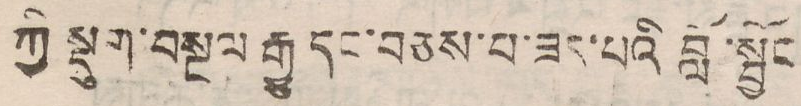ཀྱི སྡུག་བསྔལ རྒྱུ དང་བཅས་པ་ཟད་པའི བློ་སྦྱོང
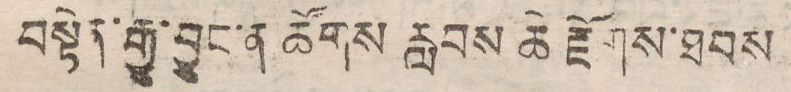བསྟེན་རྒྱུ་བྱུང་ན ཚོགས རླབས ཆེ རྫོགས་ཐབས
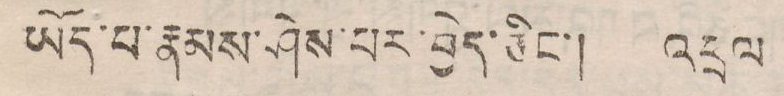ཡོད་པ་སྣམས་ཤེས་པར་བྱེད་ཅིང་། འཕྲལ་
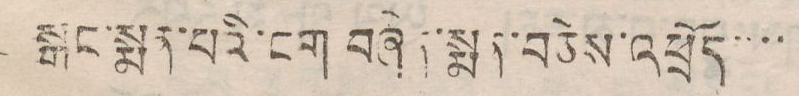སྒང་སྨན་པའི་ངག བཞིན་སྨན་བཅེས་འཕྲོད་་་་
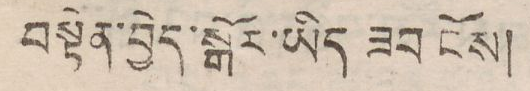བསྟེན་བྱེད་སྒོར་ཡིད ཟབ ངོས།
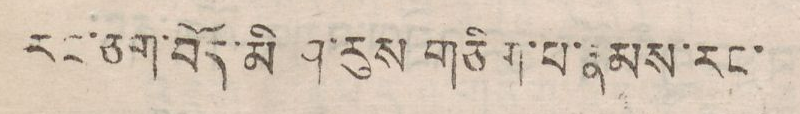རང་ཅག་བོད་མི ཤ་རུས གཅིག་པ་རྣམས་རང་
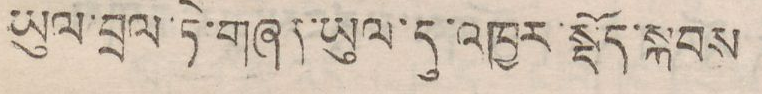ཡུལ་བྲལ་ཏེ་གཞན་ཡུལ་དུ་འཁྱར་སྡོད་སྐབས
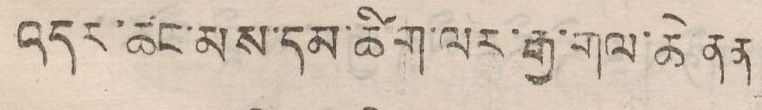འདར་ཚང་མས་དམ་ཚིག་ལར་རྒྱ་གལ་ཆེ་ནན
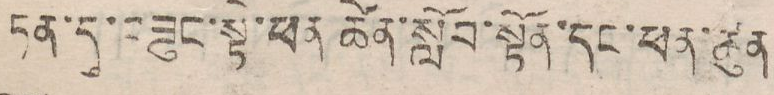ཏན་དུ་བཟུང་སྟེ་ཕན་ཚེན་སློབ་སྟོན་དང་ཕན་ཚུན
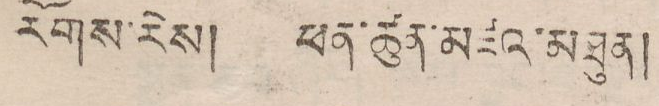རོགས་རེས། ཕན་ཚུན་མཛའ་མཐུན།
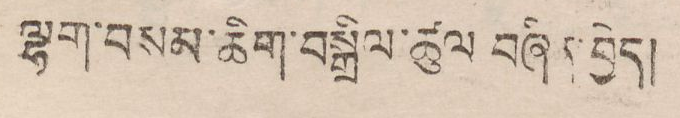ལྷག་བསམ་ཆིག་བསྒྲིལ་ཚུལ བཞིན་བྱེད།
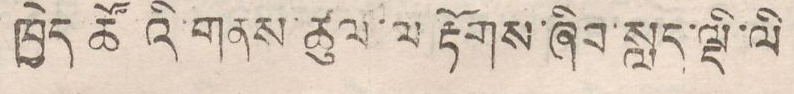ཁྱེད ཚོ འི་གནས་ཚུལ་ལ རྟོགས་ཞིབ་སླད་ལྡི་ལི
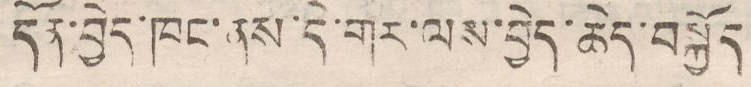དོན་བྱེད་ཁང་ནས་དེ་གར་ལས་བྱེད་ཆེད་བསྐྱོད
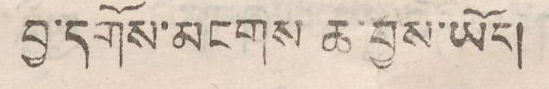བྱ་དགོས་མངགས ཆ་བྱས་ཡོང།
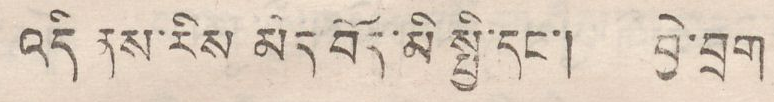འདི ནས་རིས མེད་བོད་མི་སྤྱི་དང་། བྱེ་བྲག
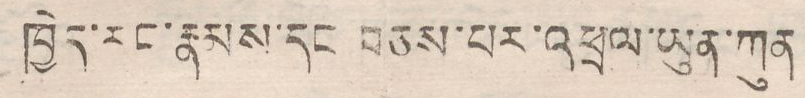ཁྱེད་རང་རྣམས་དང བཅད་པར་འཕྲལ་ཡུན་ཀུན
